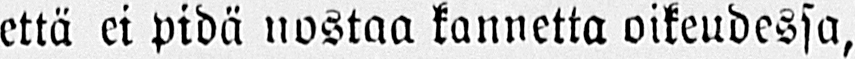että ei pidä nostaa kannetta oikeudessa,
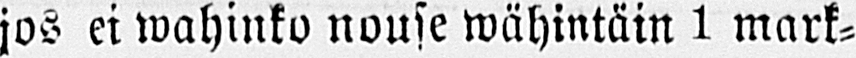jos ei wahinko nouse wähintäin 1 mark-
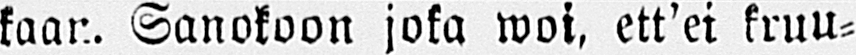kaan. Sanokoon joka woi, ett'ei kruu-
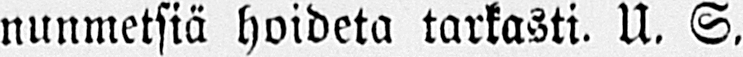nunmetsiä hoideta tarkasti. U. S.
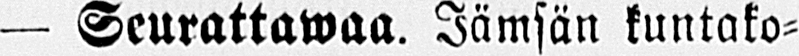— Seurattawaa. Jämsän kuntako-
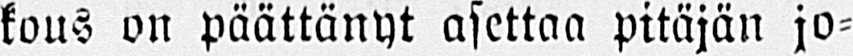kous on päättänyt asettaa pitäjän jo-
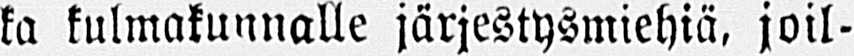ka kulmakunnalle järjestysmiehiä, joil-
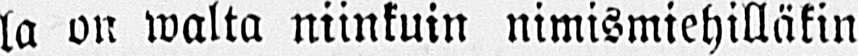la on walta niinkuin nimismiehilläkin
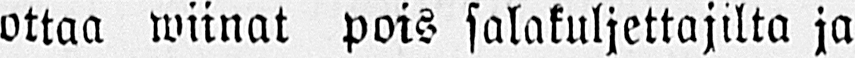ottaa wiinat pois salakuljettajilta ja
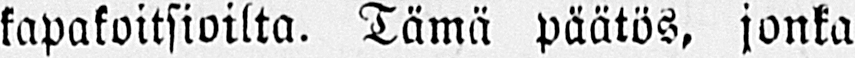kapakoitsioilta. Tämä päätös, jonka
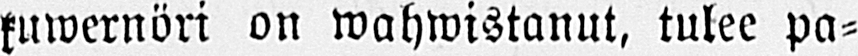kuwernöri on wahwistanut, tulee pa-
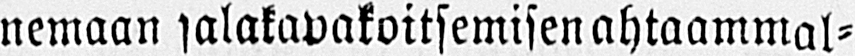nemaan salakapakoitsemisen ahtaammal-
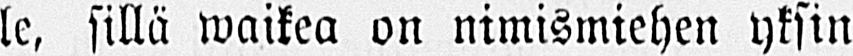le, sillä waikea on nimismiehen yksin
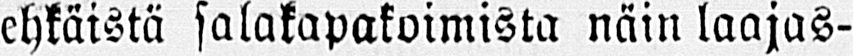ehkäistä salakapakoimista näin laajas-
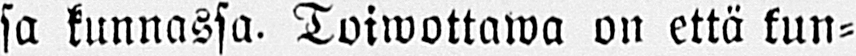sa kunnassa- Toiwottawa on että kun-
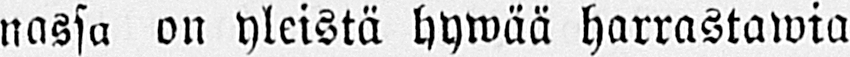nassa on yleistä hywää harrastawia
